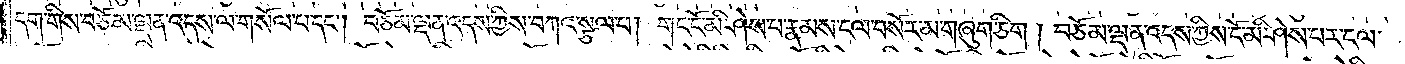དག་གིས་བཅོམ་ལྡན་འདས་ལ་གསོལ་པ་དང༌། བཅོམ་ལྡན་འདས་ཀྱིས་བཀའ་སྩལ་པ། གང་ངོ་མི་ཤེས་པ་རྣམས་ངལ་བསོར་མ་གཞུག་ཅིག །བཅོམ་ལྡན་འདས་ཀྱིས་ངོ་མི་ཤེས་པར་ངལ་
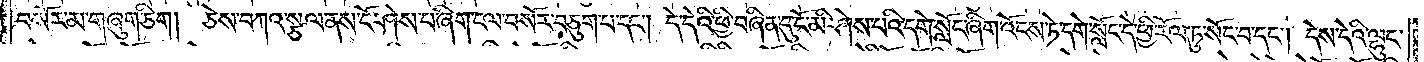བསོར་མ་གཞུག་ཅིག །ཅེས་བཀའ་སྩལ་ནས་ངོ་ཤེས་པ་ཞིག་ངལ་བསོར་བཅུག་པ་དང༌། དེ་དེའི་ཕྱི་བཞིན་དུ་ངོ་མི་ཤེས་པའི་དགེ་སློང་ཞིག་འོངས་ཏེ་དགེ་སློང་དེ་ཕྱི་རོལ་ཏུ་སོང་བ་དང༌། དེས་དེའི་ལྷུང་
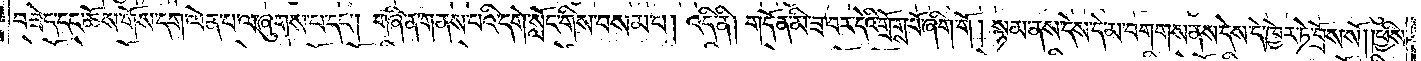བཟེད་དང་ཆོས་གོས་དག་ལེན་པ་ལ་ཞུགས་པ་དང༌། གཞི་ན་གནས་པའི་དགེ་སློང་གིས་བསམ་པ། འདི་ནི། གདོན་མི་ཟ་བར་དེའི་གྲོགས་པོ་ཞིག་གོ །སྙམ་ནས་དེས་དེ་མ་བགགས་ནས་དེས་དེ་ཁྱེར་ཏེ་བྲོས་སོ། །ཕྱིས་
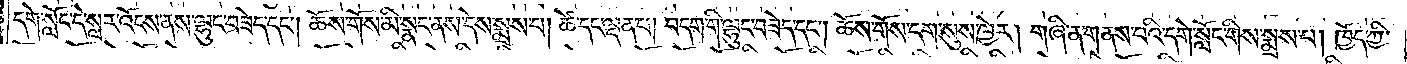དགེ་སློང་དེ་སླར་འོངས་ནས་ལྷུང་བཟེད་དང༌། ཆོས་གོས་མི་སྣང་ནས་དེས་སྨྲས་པ། ཚེ་དང་ལྡན་པ། བདག་གི་ལྷུང་བཟེད་དང༌། ཆོས་གོས་དག་སུས་ཁྱེར། གཞི་ན་གནས་པའི་དགེ་སློང་གིས་སྨྲས་པ། ཁྱོད་ཀྱི་
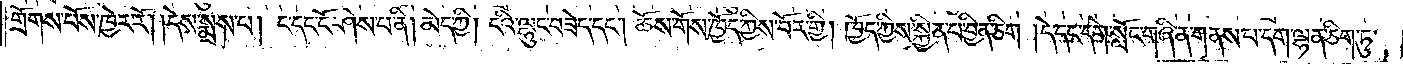གྲོགས་པོས་ཁྱེར་རོ། །དེས་སྨྲས་པ། ང་དང་ངོ་ཤེས་པ་ནི། མེད་ཀྱི། ངའི་ལྷུང་བཟེད་དང༌། ཆོས་གོས་ཁྱོད་ཀྱིས་བོར་གྱི། ཁྱོད་ཀྱིས་སྐྱིན་པ་བྱིན་ཅིག །དེ་དང་དགེ་སློང་གཞི་ན་གནས་པ་དག་ལྷན་ཅིག་ཏུ་
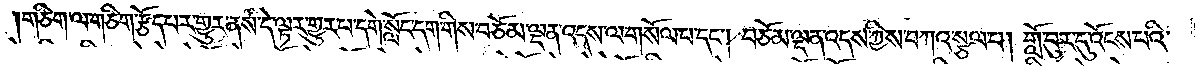གཅིག་ལ་གཅིག་རྩོད་པར་གྱུར་ནས་དེ་ལྟར་གྱུར་པ་དགེ་སློང་དག་གིས་བཅོམ་ལྡན་འདས་ལ་གསོལ་པ་དང༌། བཅོམ་ལྡན་འདས་ཀྱིས་བཀའ་སྩལ་པ། གློ་བུར་དུ་འོངས་པའི་
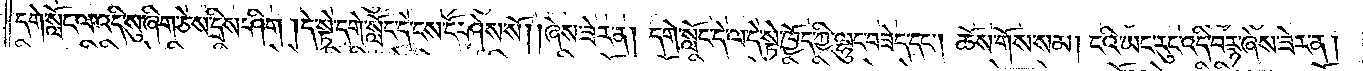དགེ་སློང་ལ་འདི་སུ་ཞིག་ཅེས་དྲིས་ཤིག །དེ་སྟེ་དགེ་སློང་དེ་ངས་ངོ་ཤེས་སོ། །ཞེས་ཟེར་ན། དགེ་སློང་དེ་ལ་དེ་སྟེ་ཁྱོད་ཀྱི་ལྷུང་བཟེད་དང༌། ཆོས་གོས་སམ། ངའི་ཡང་རུང་འདི་བརྙ་ཞེས་ཟེར་ན།
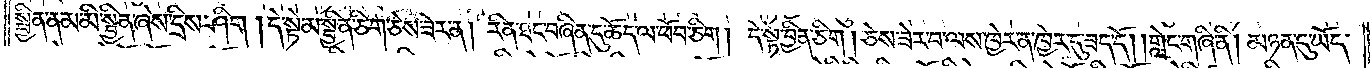སྦྱིན་ནམ་མི་སྦྱིན་ཞེས་དྲིས་ཤིག །དེ་སྟེ་མ་སྦྱིན་ཅིག་ཅེས་ཟེར་ན། རིན་ཐང་བཞིན་དུ་ཆོད་ལ་ཕོབ་ཅིག །དེ་སྟེ་བྱིན་ཅིག །ཅེས་ཟེར་བ་ལས་ཁྱེར་ན་ཁྱེར་དུ་ཟད་དོ། །གླེང་གཞི་ནི། མཉན་དུ་ཡོད་
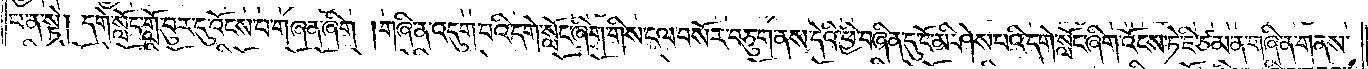པ་ན་སྟེ། དགེ་སློང་གློ་བུར་དུ་འོངས་པ་གཞན་ཞིག །གཞི་ན་འདུག་པའི་དགེ་སློང་ཞིག་གིས་ངལ་བསོར་བཅུག་ནས་དེའི་ཕྱི་བཞིན་དུ་ངོ་མི་ཤེས་པའི་དགེ་སློང་ཞིག་འོངས་ཏེ་ཇི་ཙམ་ན་གཞི་ན་གནས་
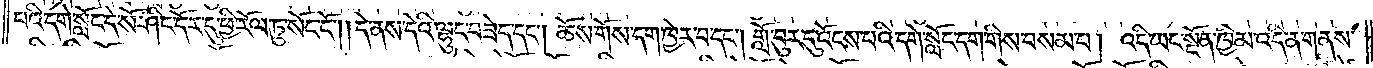པའི་དགེ་སློང་དེ་སོ་ཤིང་དོར་དུ་ཕྱི་རོལ་ཏུ་སོང་ངོ༌། །དེ་ནས་དེའི་ལྷུང་བཟེད་དང༌། ཆོས་གོས་དག་ཁྱེར་བ་དང༌། གློ་བུར་དུ་འོངས་པའི་དགེ་སློང་དག་གིས་བསམ་པ། འདི་ཡང་སྔོན་ཁྱིམ་འདི་ན་གནས་
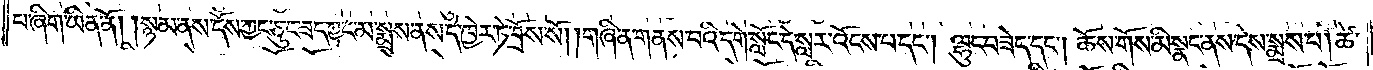པ་ཞིག་ཡིན་ནོ། །སྙམ་ནས་དོས་ཀྱང་ཅུང་ཟད་ཀྱང་མ་སྨྲས་ནས་དེ་ཁྱེར་ཏེ་བྲོས་སོ། །གཞི་ན་གནས་པའི་དགེ་སློང་དེ་སླར་འོངས་པ་དང༌། ལྷུང་བཟེད་དང༌། ཆོས་གོས་མི་སྣང་ནས་དེས་སྨྲས་པ། ཚེ་
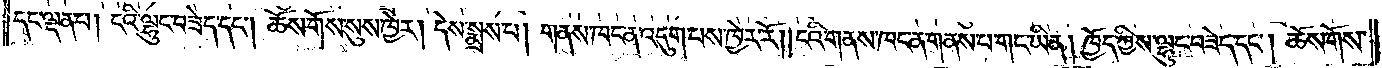དང་ལྡན་པ། ངའི་ལྷུང་བཟེད་དང༌། ཆོས་གོས་སུས་ཁྱེར། དེས་སྨྲས་པ། གནས་ཁང་ན་འདུག་པས་ཁྱེར་རོ། །ངའི་གནས་ཁང་ན་གནས་པ་གང་ཡིན། ཁྱོད་ཀྱིས་ལྷུང་བཟེད་དང༌། ཆོས་གོས་
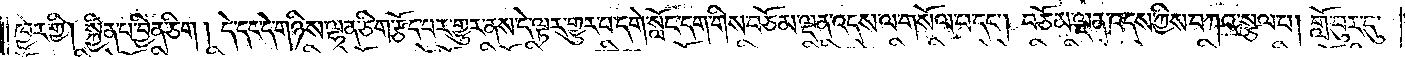ཁྱེར་གྱི། སྐྱིན་པ་བྱིན་ཅིག །དེ་དང་དེ་གཉིས་ལྷན་ཅིག་རྩོད་པར་གྱུར་ནས་དེ་ལྟར་གྱུར་པ་དགེ་སློང་དག་གིས་བཅོམ་ལྡན་འདས་ལ་གསོལ་པ་དང༌། བཅོམ་ལྡན་འདས་ཀྱིས་བཀའ་སྩལ་པ། གློ་བུར་དུ་
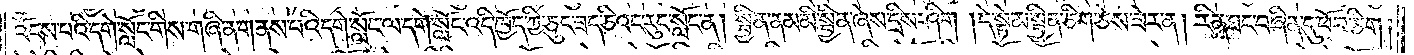འོངས་པའི་དགེ་སློང་གིས་གཞི་ན་གནས་པའི་དགེ་སློང་ལ་དགེ་སློང་འདི་ཁྱོད་ཀྱི་ཅུང་ཟད་ཅིའང་རུང་སློང་ན། སྦྱིན་ནམ་མི་སྦྱིན་ཞེས་དྲིས་ཤིག །དེ་སྟེ་མ་སྦྱིན་ཅིག་ཅེས་ཟེར་ན། རིན་ཐང་བཞིན་དུ་ཕོབ་ཅིག་
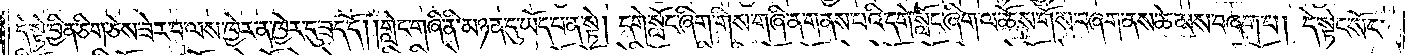དེ་སྟེ་བྱིན་ཅིག་ཅེས་ཟེར་བ་ལས་ཁྱེར་ན་ཁྱེར་དུ་ཟད་དོ། །གླེང་གཞི་ནི་མཉན་དུ་ཡོད་པ་ན་སྟེ། དགེ་སློང་ཞིག་གིས་གཞི་ན་གནས་པའི་དགེ་སློང་ཞིག་ལ་ཆོས་གོས་བཞག་ནས་ཆེམས་བཞག་པ། དེ་སྟེང་སོང་
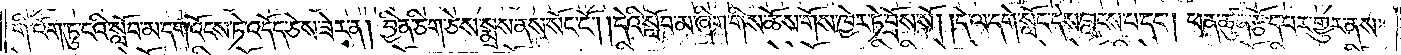གི་འོག་ཏུ་ངའི་སློབ་མ་དག་འོངས་ཏེ་འདོད་ཅེས་ཟེར་ན། བྱིན་ཅིག་ཅེས་སྨྲས་ནས་སོང་ངོ༌། །དེའི་སློབ་མ་ཞིག་གིས་ཆོས་གོས་ཁྱེར་ཏེ་བྲོས་སོ། །དེ་ལ་དགེ་སློང་དེས་བླངས་པ་དང༌། ཕན་ཚུན་རྩོད་པར་གྱུར་ནས་
